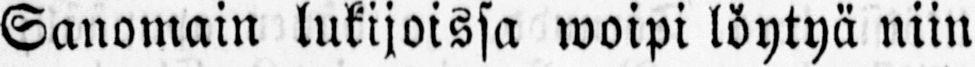Sanomain lukijoissa woipi löytyä niin
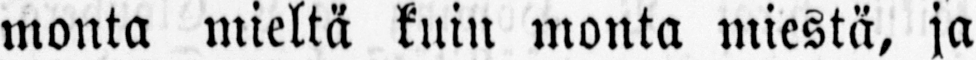monta mieltä kuin monta miestä, ja
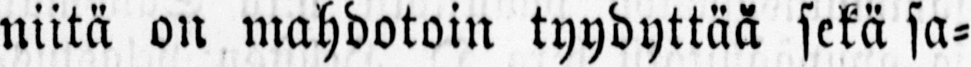niitä on mahdotoin: tyydyttää sekä sa-
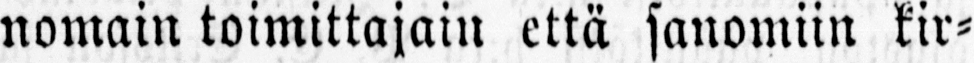nomain toimittajain että sanomiin kir-
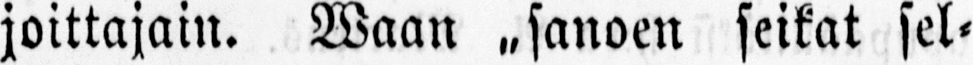joittajain. Waan ˶sanoen seikat sel-
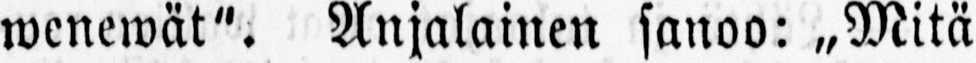wenewät". Anjalainen sanoo: „Mitä
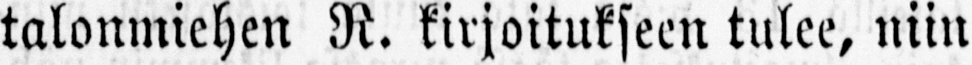talonmiehen R. kirjoitukseen tulee, niin
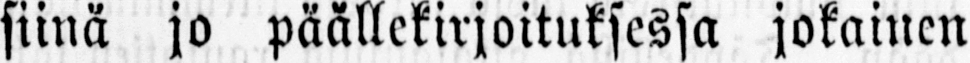siinä jo päällekirjoituksessa jokainen
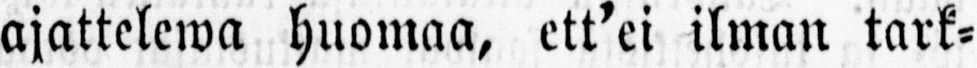ajattelewa huomaa, ett'ei ilman tark-
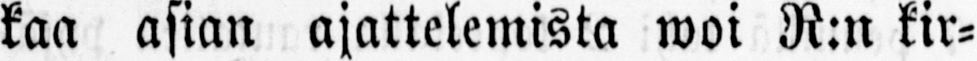kaa asian ajattelemista woi R:n kir-
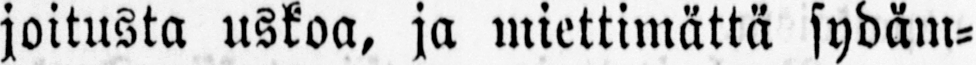joitusta uskoa, ja miettimättä sydäm-
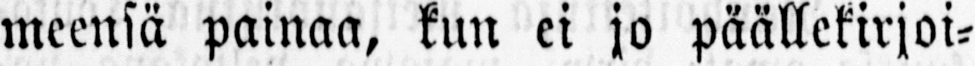meensä painaa, kun ei jo päällekirjoi-
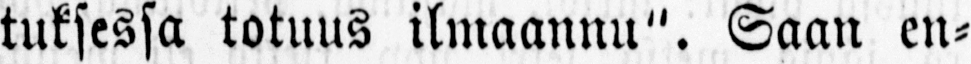tuksessa totuus ilmaannu". Saan en-
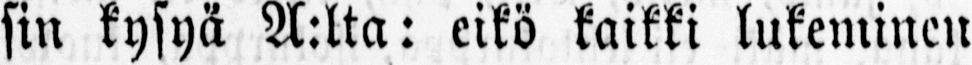sin kysyä A:lta: eikö kaikki lukeminen
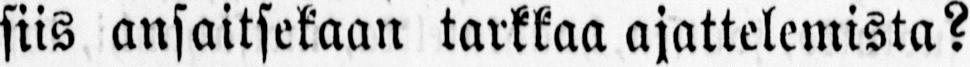siis ansaitsekaan tarkkaa ajattelemista?
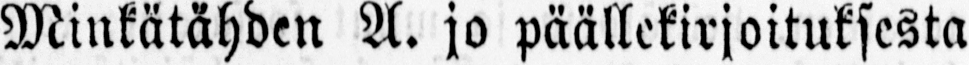Minkätähden A. jo päällekirjoituksesta
